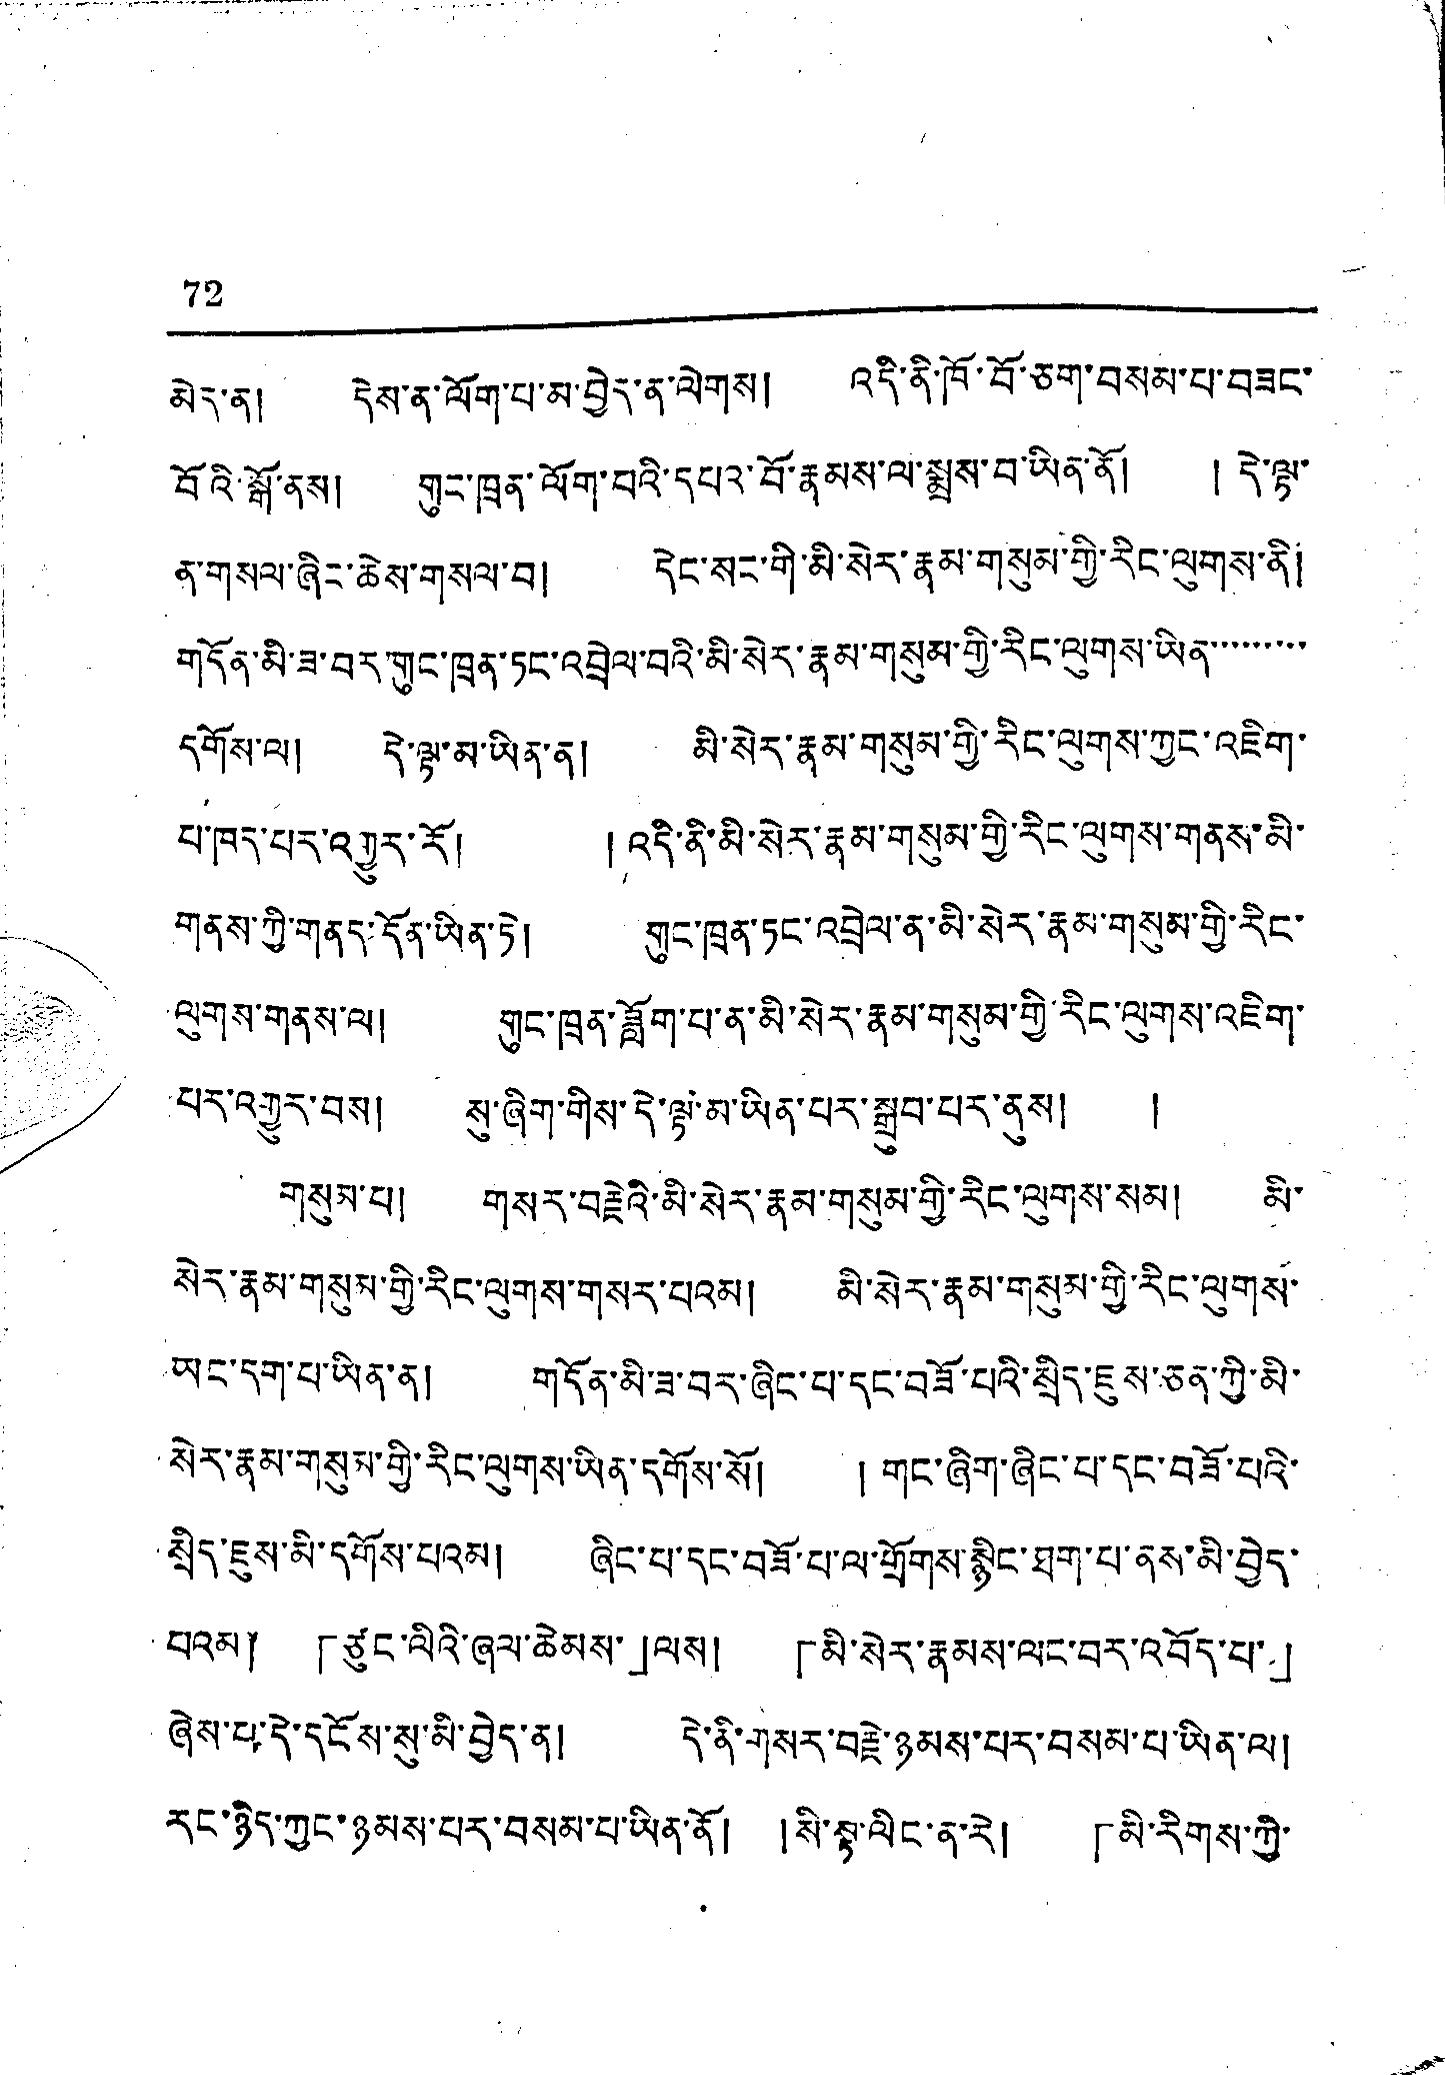72
མེད་ན། དེས་ན་ལོག་པ་མ་བྱེད་ན་ལེགས། འདི་ནི་ཁོ་བོ་ཅག་བསམ་པ་བཟང་
བོའི་སྒོ་ནས། གུང་ཁྲན་ལོག་པའི་དཔའ་བོ་རྣམས་ལ་སྨྲས་བ་ཡིན་ནོ། ། དེ་ལྟ་
ནི་གསལ་ཞིང་ཆེས་གསལ་བ། དེང་སང་གི་མི་སེར་རྣམ་གསུམ་གྱི་རིང་ལུགས་ནི།
གདོན་མི་ཟ་བར་གུང་ཁྲན་ཏང་འབྲེལ་བའི་མི་སེར་རྣམ་གསུམ་གྱི་རིང་ལུགས་ཡིན་་་་་་་་་
དགོས་ལ། དེ་ལྟ་མ་ཡིན་ན། མི་སེར་རྣམ་གསུམ་གྱི་རིང་ལུགས་ཀྱང་འཇིག་
པ་ཁད་པར་འགྱུར་རོ། །འདི་ནི་མི་སེར་རྣམ་གསུམ་གྱི་རིང་ལུགས་གནས་མི་
གནས་ཀྱི་གནད་དོན་ཡིན་ཏེ། གུང་ཁྲན་ཏང་འབྲེལ་ན་མི་སེར་རྣམ་གསུམ་གྱི་རིང་
ལུགས་གནས་ལ། གུང་ཁྲན་ཟློག་པ་ན་མི་སེར་རྣམ་གསུམ་གྱི་རིང་ལུགས་འཇིག་
པར་འགྱུར་བྱས། སུ་ཞིག་གིས་དེ་ལྟ་མ་ཡིན་པར་སྒྲུབ་པར་ནས། །
གསུམ་པ། གསར་བརྗེའི་མི་སེར་རྣམ་གསུམ་གྱི་རིང་ལུགས་སམ། མི་
སེར་རྣམ་གསུམ་གྱི་རིང་ལུགས་གསར་པའམ། མི་སེར་རྣམ་གསུམ་གྱི་རིང་ལུགས་
ཡང་དག་པ་ཡིན་ན། གདོན་མི་ཟ་བར་ཞིང་པ་དང་བཟོ་པའི་སྲིད་ཇུས་ཅན་ཀྱི་མི་
སེར་རྣམ་གསུལ་གྱི་རིང་ལུགས་ཡིན་དགོས་སོ། །གང་ཞིག་ཞིང་པ་དང་བཟོ་པའི་
སྲིད་ཇུས་མི་དགོས་པའམ། ཞིང་པ་དང་བཟོ་པ་ལ་གྲོགས་སྙིང་ཐག་པ་ནས་མི་བྱེད་
བའམ༐ 「ཙུང་ལིའི་ཞལ་ཆེམས་」ལས། 「མི་སེར་རྣམས་ལུང་བར་འབོད་པ་」
ཞེས་པ་དེ་དངོས་སུ་མི་བྱེད་ན། དེ་ནི་གསར་བརྗེ་ཉམས་པར་བསམ་པ་ཡིན་ལ།
རང་ཉིད་ཀྱང་ཉམས་པར་བསམ་པ་ཡིན་ནོ། །སི་སྟ་ལིང་ན་རེ། 「མི་རིགས་ཀྱི་
